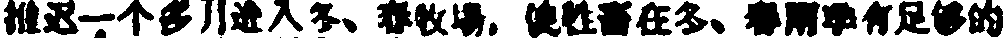推迟一个多月进入冬、春牧場，使牲畜在冬、春两季有足够的
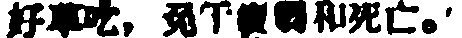好草吃，免于挨餓和死亡。
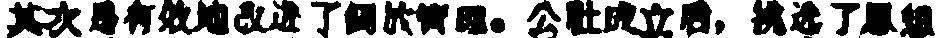其次是有效地改造了飼放管理。公社成立后，挑选了思想
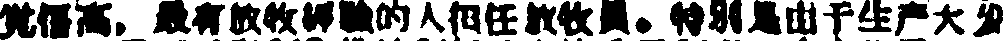覚悟高，最有放牧經驗的人担任敎牧員。特別是由于生产大发
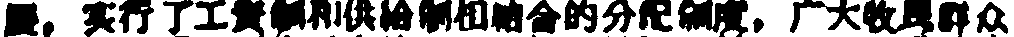展，实行了工資制和供給制相結合的分配制度，广大牧民群众
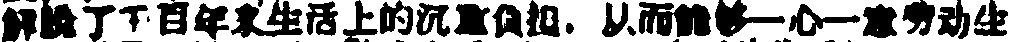解脱了千百年来生活上的沉重负担，从而能够一心一意劳动生
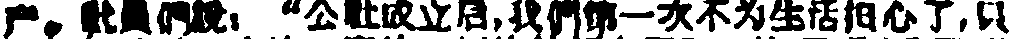产。社員們說：“公社成立后，我們第一次不为生活担心了，只
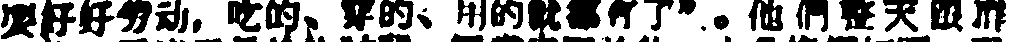要好好劳动，吃的、穿的、用的就都有了”。他們整天跟随
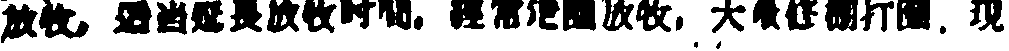放牧，适当延長放牧时間，經常定围放牧，大量修棚打圈，現
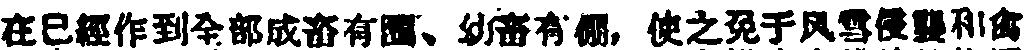在已經作到全部成畜有圈、幼畜有棚，使之免于风霜侵襲和禽
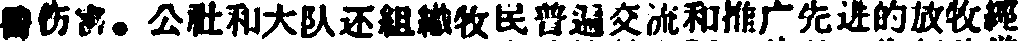兽傷害。公社和大队还組織牧民普遍交流和推广先进的放牧經
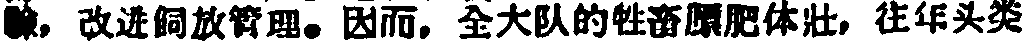驗，改进飼放管理。因而，全大队的牲畜膘肥体壮，往年头类
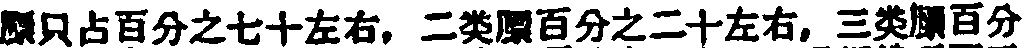膘只占百分之七十左右，二类膘百分之二十左右，三类膘百分
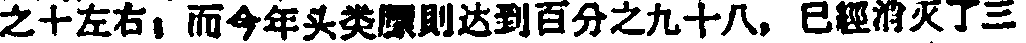之十左右；而今年头类膘則达到百分之九十八，已經消灭了三
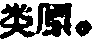类膘。
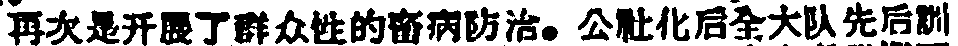再次是开展了群众性的畜病防治。公社化后全大队先后訓
